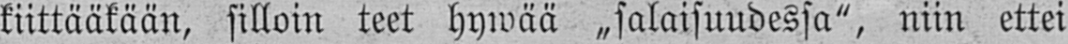kiittääkään, silloin teet hywää ˶salaisuudessa", niin ettei
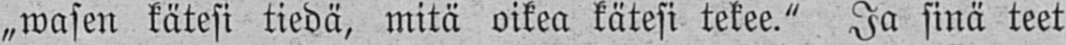„wasen kätesi tiedä, mitä oikea kätesi tekee." Ja sinä teet
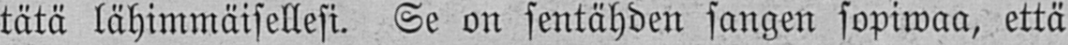tätä lähimmäisellesi. Se on sentähden sangen sopiwaa, että
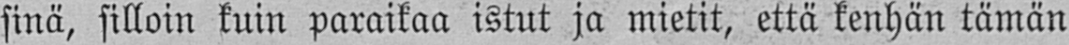sinä, silloin kuin paraikaa istut ja mietit, että kenhän tämän
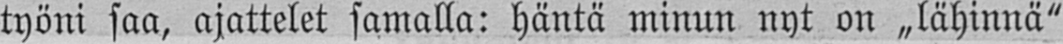työni saa, ajattelet samalla: häntä minun nyt on „lähinnä"
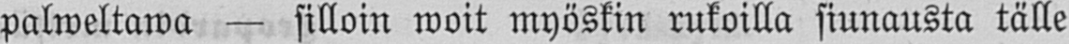palweltawa — silloin woit myöskin rukoilla siunausta tälle
